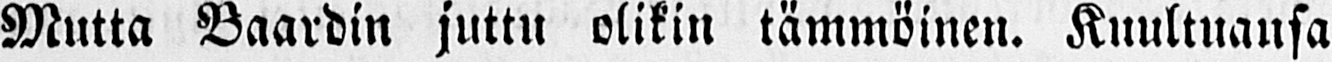Mutta Baardin juttu olikin tämmöinen. Kuultuansa
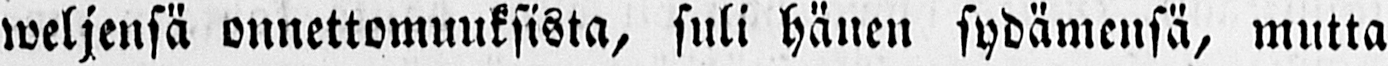weljensä onnettomuuksista, suli hänen sydämensä, mutta
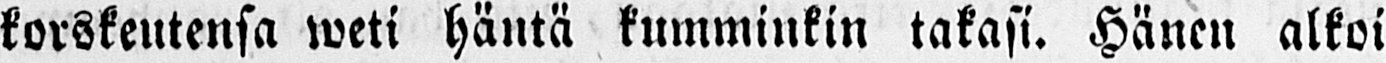korskeutensa weti häntä kumminkin takasi. Hänen alkoi
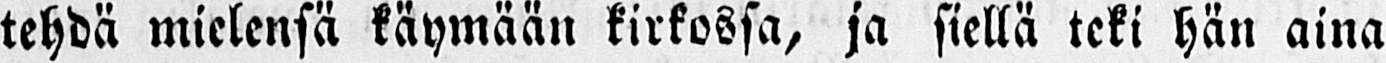tehdä mielensä käymään kirkossa, ja siellä teki hän aina
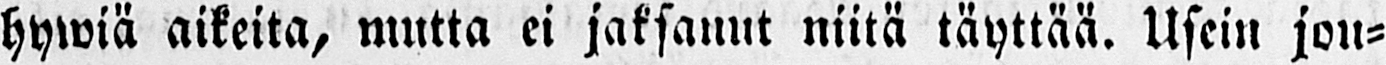hywiä aikeita, mutta ei jaksanut niitä täyttää. Usein jou-
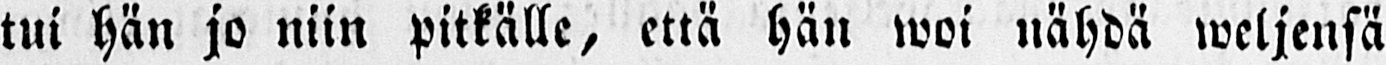tui hän jo niin pitkälle, että hän woi nähdä weljensä
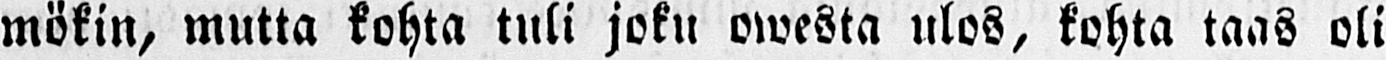mökin, mutta kohta tuli joku owesta ulos, kohta taas oli
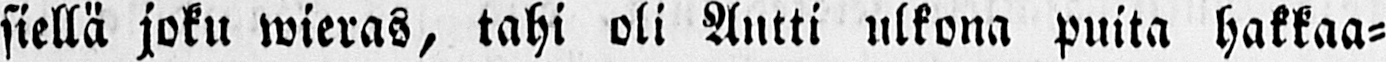siellä joku wieras, tahi oli Antti ulkona puita hakkaa-
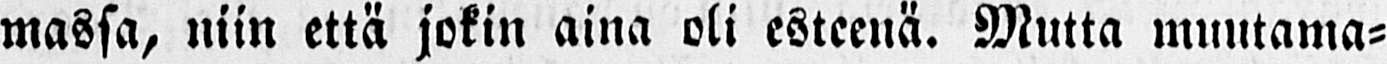massa, niin että jokin aina oli esteenä. Mutta muutama-
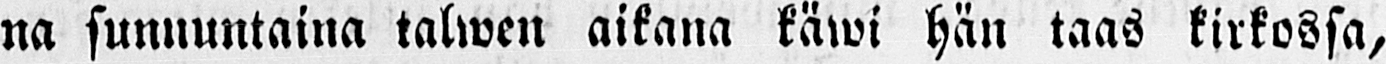na sunnuntaina talwen aikana käwi hän taas kirkossa,
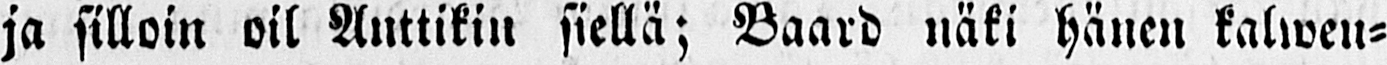ja silloin oil Anttikin siellä; Baard näki hänen kalwen-
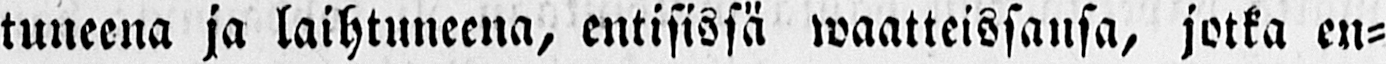tuneena ja laihtuneena, entisissä waatteissansa, jotka en-
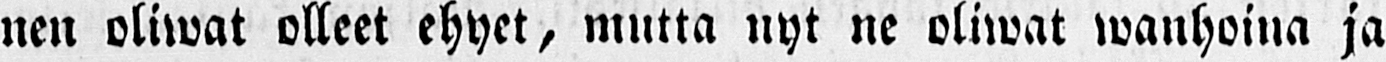nen oliwat olleet ehyet, mutta nyt ne oliwat wanhoina ja
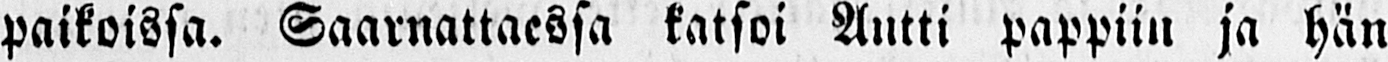paikoissa. Saarnattaessa katsoi Antti pappiin ja hän
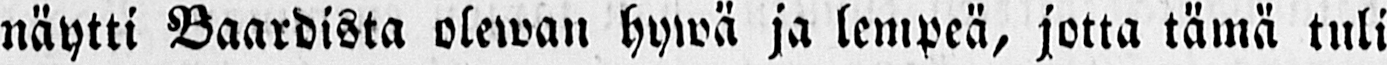näytti Baardista olewan hywä ja lempeä, jotta tämä tuli
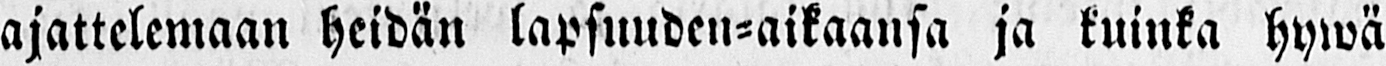ajattelemaan heidän lapsuuden-aikaansa ja kuinka hywä
